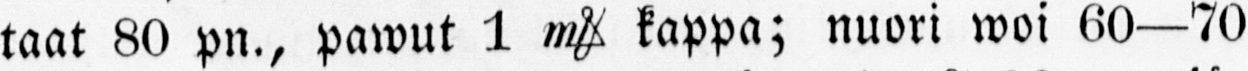taat 80 pn., pawut 1 m& kappa; nuori woi 60—70
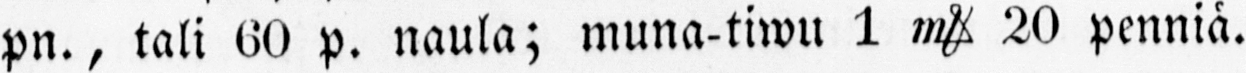pn., tali 60 p. naula; muna-tiwu 1 m& 20 penniä.
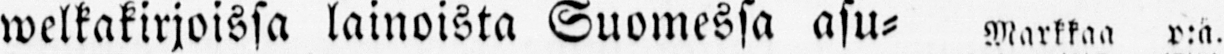welkakirjoissa lainoista Suomessa asu- Markkaa. p:a.
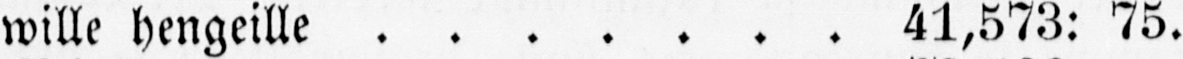wille hengeille 41,573: 75.
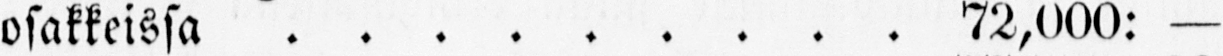osakkeissa 72,000: —
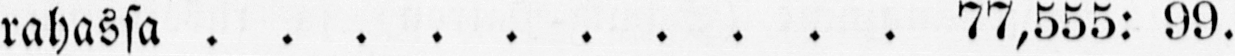rahassa 77,555: 99.
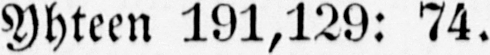Yhteen 191,129: 74.
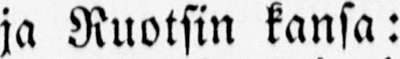ja Ruotsin kansa:
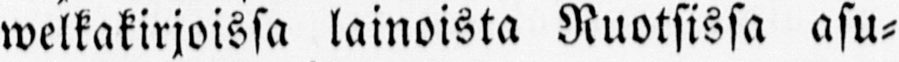welkakirjoissa lainoista Ruotsissa asu-
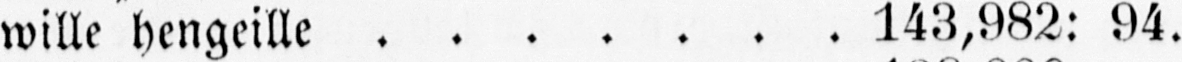wille hengeille 143,982: 94.
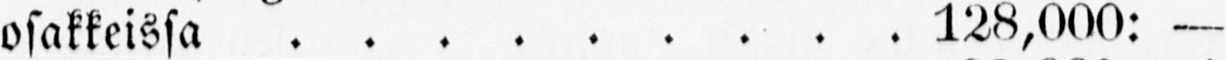osakkeissa 128,000: —
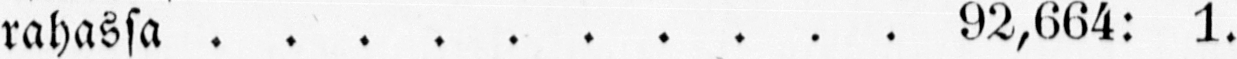rahassa 92,664: 1.
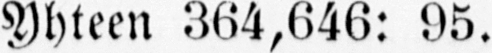Yhteen 364,646: 95.
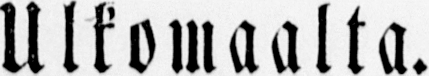Ulkomaalta.
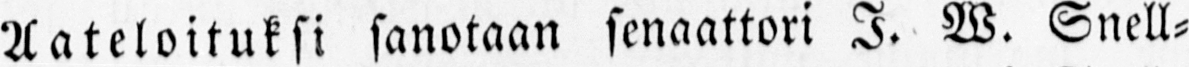Aateloituksi sanotaan senaattori I. W. Snell-
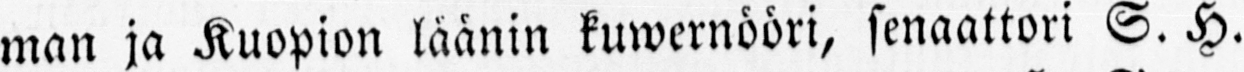man ja Kuopion läänin kuwernööri, senaattori S. H.
